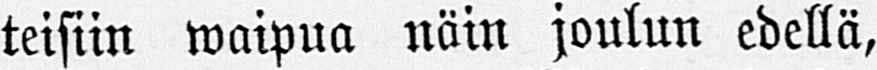teisiin waipua näin joulun edellä,
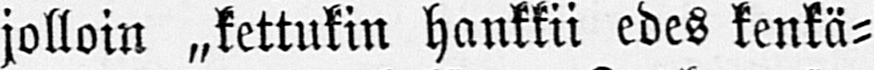jolloin „kettukin hankkii edes kenkä-
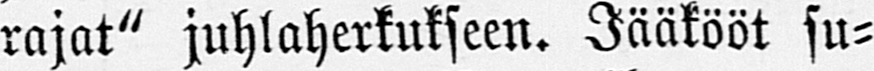rajat" juhlaherkukseen. Jääkööt su-
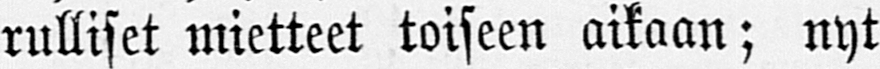rulliset mietteet toiseen aikaan; nyt
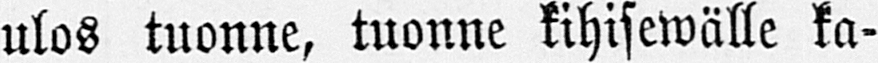ulos tuonne, tuonne kihisewälle ka-
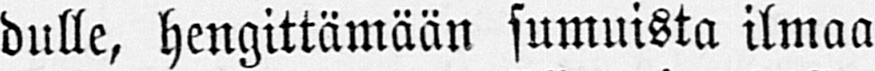dulle, hengittämään sumuista ilmaa
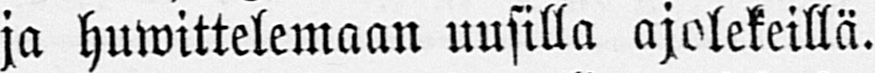ja huwittelemaan uusilla ajolekeillä.
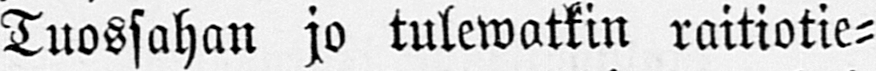Tuossahan jo tulewatkin raitiotie-
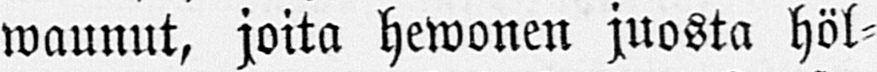waunut, joita hewonen juosta höl-
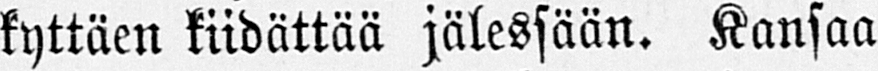kyttäen kiidättää jälessään. Kansaa
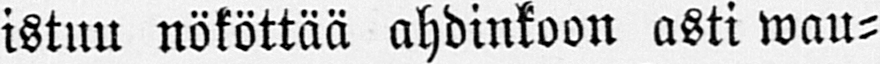istuu nököttää ahdinkoon asti wau-
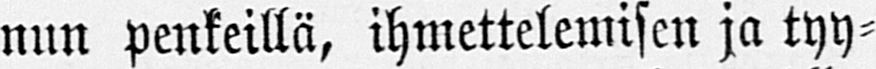nun penkeillä, ihmettelemisin ja tyy-
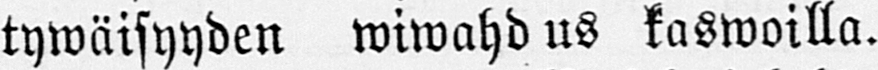tywäisyyden wiwahdus kaswoilla.
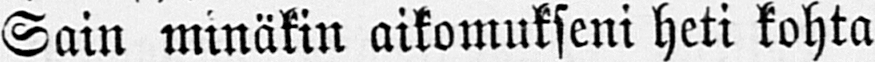Sain minäkin aikomukseni heti kohta
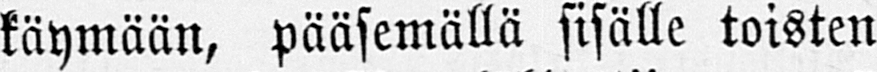käymään, pääsemällä sisälle toisten
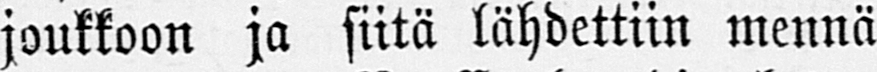joukkoon ja siitä lähdettiin mennä
